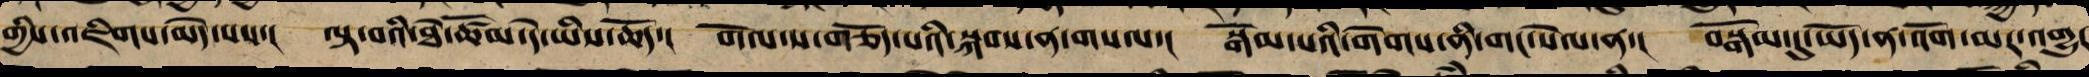གྱིས་འཇིགས་མེད་པས་། ལྟ་བའི་ཐེ་ཚོམ་དེ་ཡིས་ཆོད་། གོལ་ས་གཅོད་པའི་སྐབས་ན་གསལ་། སྒོམ་པའི་གེགས་ནི་གང་སེལ་ན་། བསྒོམ་དུ་ཡོད་ན་འོག་མར་འགྱུར
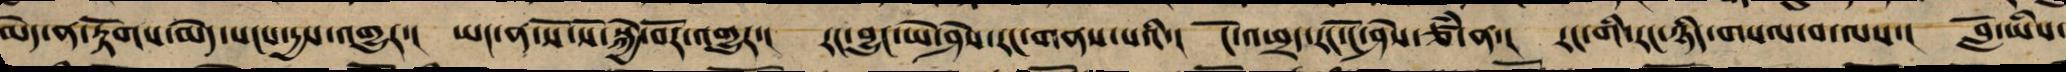མེད་ན་རྟོག་མེད་སངས་དྱས་འགྱུར་། ཡང་ན་སོ་སོ་སྐྱེ་བོར་འགྱུར་། རང་བྱུང་ཡེ་ཤེས་རང་གནས་པའི་། ངོ་འཕྲད་རང་ངོ་ཤེས་ཙཾ་ན་། རང་གིས་རང་ཉིད་གསལ་བ་ལས་། བློ་ཡིས་
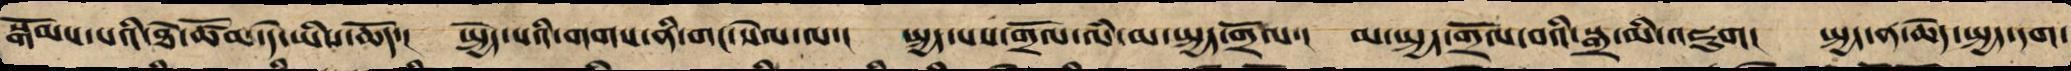སྒོམས་པའི་ཐེ་ཚོམ་དེ་ཡིས་ཆོད་། སྤྱོད་པའི་གགས་རྣམས་གང་སེལ་ལ་། སྤྱད་པས་གྲོལ་ལམ་མ་སྤྱད་གྲོལ་། མ་སྤྱད་གྲོལ་བའི་སྒྲ་མི་འཇུག། སྤྱད་ན་ཆེད་སྤྱད་དག་
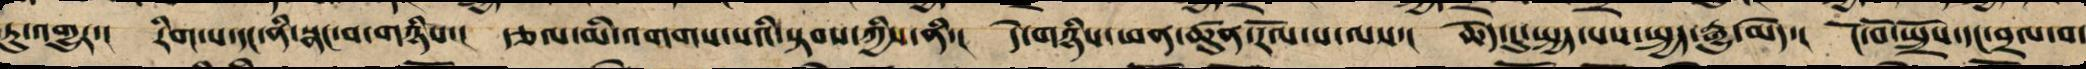ཏུ་འགྱུར་། རིག་པ་དང་ནི་སྣང་བ་གཉིས་། རྩལ་མི་འགགས་པའི་སྟོབས་ཀྱིས་ནི་། དེ་གཉིས་ཕན་ཚུན་རོལ་པ་ལས་། ཆེད་དུ་སྤྱད་པས་སྤྱད་རྒྱུ་མེད་། ངོ་བོ་སྤྲོས་དང་བྲལ་བ་
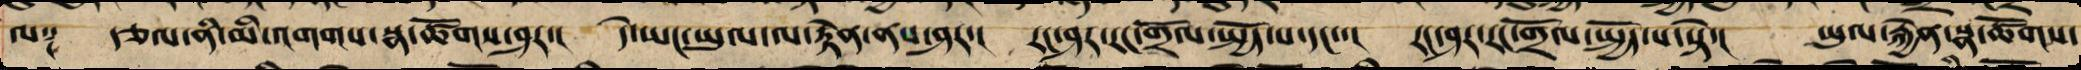ལ༑ རྩལ་ནི་མི་འགགས་སྣ་ཚོགས་འཆར་། དེ་ཡང་ཡུལ་ལ་རྟེན་ནས་འཆར་། རང་ཤར་རང་གྲོལ་སྤྱོད་པ་སྟེ་། ཡུལ་རྐྱེན་སྣ་ཚོགས་
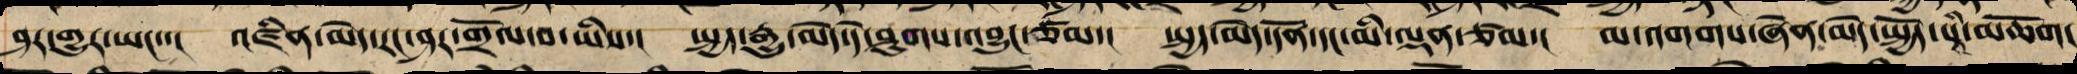ཤར་གྱུར་ཀྱང་་། འཛིན་མེད་རང་སར་གྲོལ་བ་ཡིས་། སྤྱད་རྒྱུ་མེད་དེ་ཤུགས་འབྱུང་ཙམ་། སྤྱད་མེད་དོན་དང་མི་ལྡན་ཙམ་། མ་འགགས་ཞེན་མེད་སྤྱོད་པའི་མཆོག།
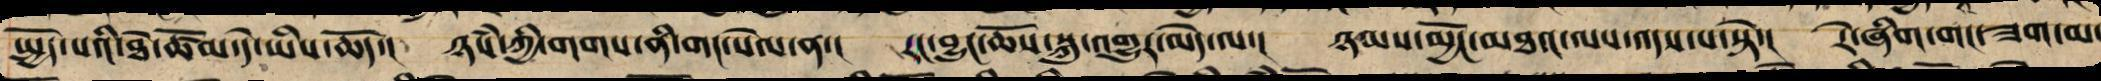སྤྱོད་པའི་ཐེ་ཚོམ་དེ་ཡིས་ཆོད་། ཉཾས་ཀྱི་གགས་ནི་གང་སེལ་ན་། རང་བྱུང་ཆོས་སྐུ་འགྱུར་མེད་ནི་། ཉམས་མྱོང་མཐའ་ལས་འདས་པ་སྟེ་། རེ་ཞིག་གང་ཟག་མ་
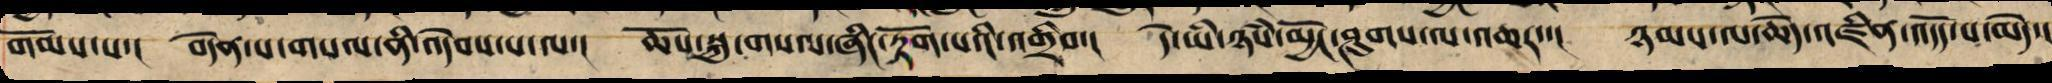གོམས་པས་། བདེན་པ་གསལ་ནི་འདེབས་པ་ལ་། ཆོས་སྐུ་གསལ་ཞིང་རྟག་པའི་འགྲིབ་། དེ་ཡིས་ཉཾས་མྱོང་ཤུགས་ལས་འཆར་། ཉམས་ལ་ཆེད་འཛིན་འདོད་པ་མེད་།
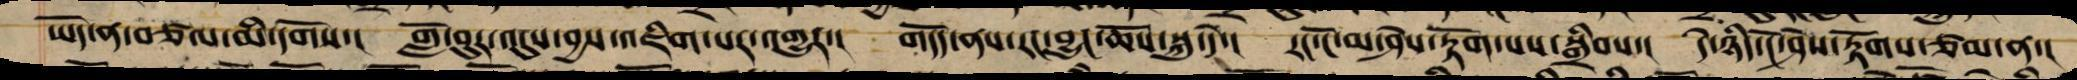ཡོད་ན་བཙལ་མ་དགོས་། གློ་བུར་འདུས་བྱས་འཇིག་པར་འགྱུར་། གདོད་ནས་རང་བྱུང་ཆོས་སྐུ་དེ་། རང་ངོ་མ་ཤེས་རྟོག་པས་སྒྲིབས་། དེ་ཉིད་ངོ་ཤེས་རྟོགས་ཙམ་ན་།
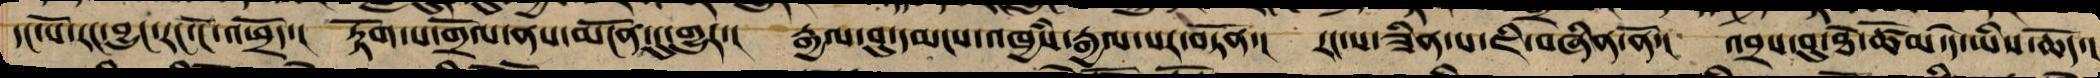དང་པོ་རང་བྱུང་རང་ངོ་འཕྲོད་། རྟོགས་པ་གྲོལ་ནས་མངོན་དུ་འགྱུར་། རྒྱལ་བུ་དམངས་འཁྱཾས་རྒྱལ་སར་བཏོན་། རང་ས་ཟིན་པ་ཇི་བཞིན་ནོ་། འབྲས་བུའི་ཐེ་ཚོམ་དེ་ཡིས་ཆོད་།
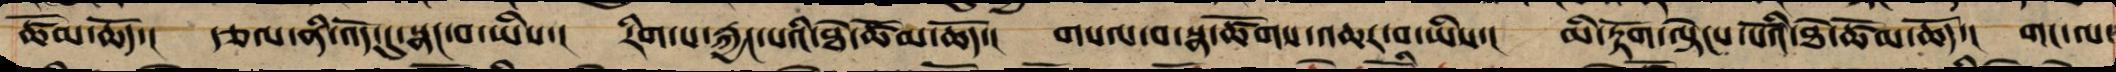ཚོམ་ཆོད་། རྩལ་ནི་འོད་དུ་སྣང་བ་ཡིས་། རིག་པ་རྐྱང་པའི་ཐེ་ཚོམ་ཆོད་། གསལ་བ་སྣ་ཚོགས་འཆར་བ་ཡིས་། མི་རྟོག་ལྟེངས་པོའི་ཐེ་ཚོམ་ཆོད་། གང་ལ་
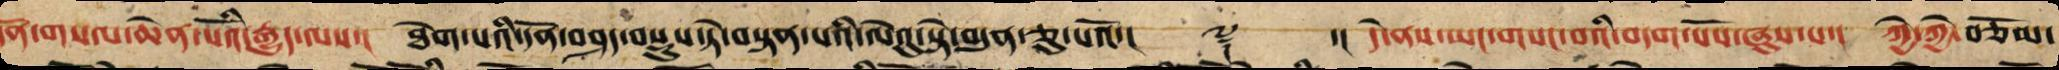དོན་གསལ་ཆེན་པོའི་རྒྱུད་ལས་། ཐེག་པའི་དོན་བཤད་བསྡུས་ཏེ་བསྟན་པའི་ལེའུ་སྟེ་བདུན་ཅུ་པའོ་།། ༈ ་།། དེ་ནས་ཡང་གསང་བའི་བདག་པོས་ཞུས་པ་། ཀྱེ་ཀྱེ་བཅོམ་
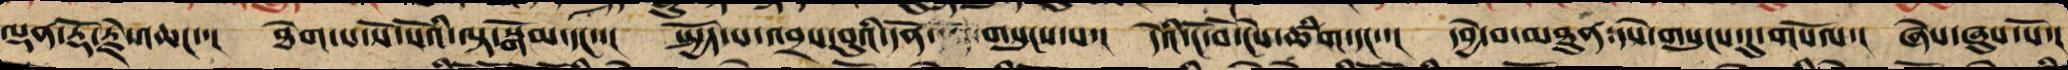ལྡན་རྡོ་རྗེ་འཆང་་། ཐེག་པ་སོ་སོའི་ལྟ་སྒོམ་དང་་། སྤྱོད་པ་འབྲས་བུའི་དོན་གསུངས་པ་། དེའི་ངོ་བོ་ངེས་ཚིག་དང་་། དབྱེ་བ་མཐུན་དཔེ་གསུང་དུ་གསོལ་། ཞེས་ཞུས་སོ་།
